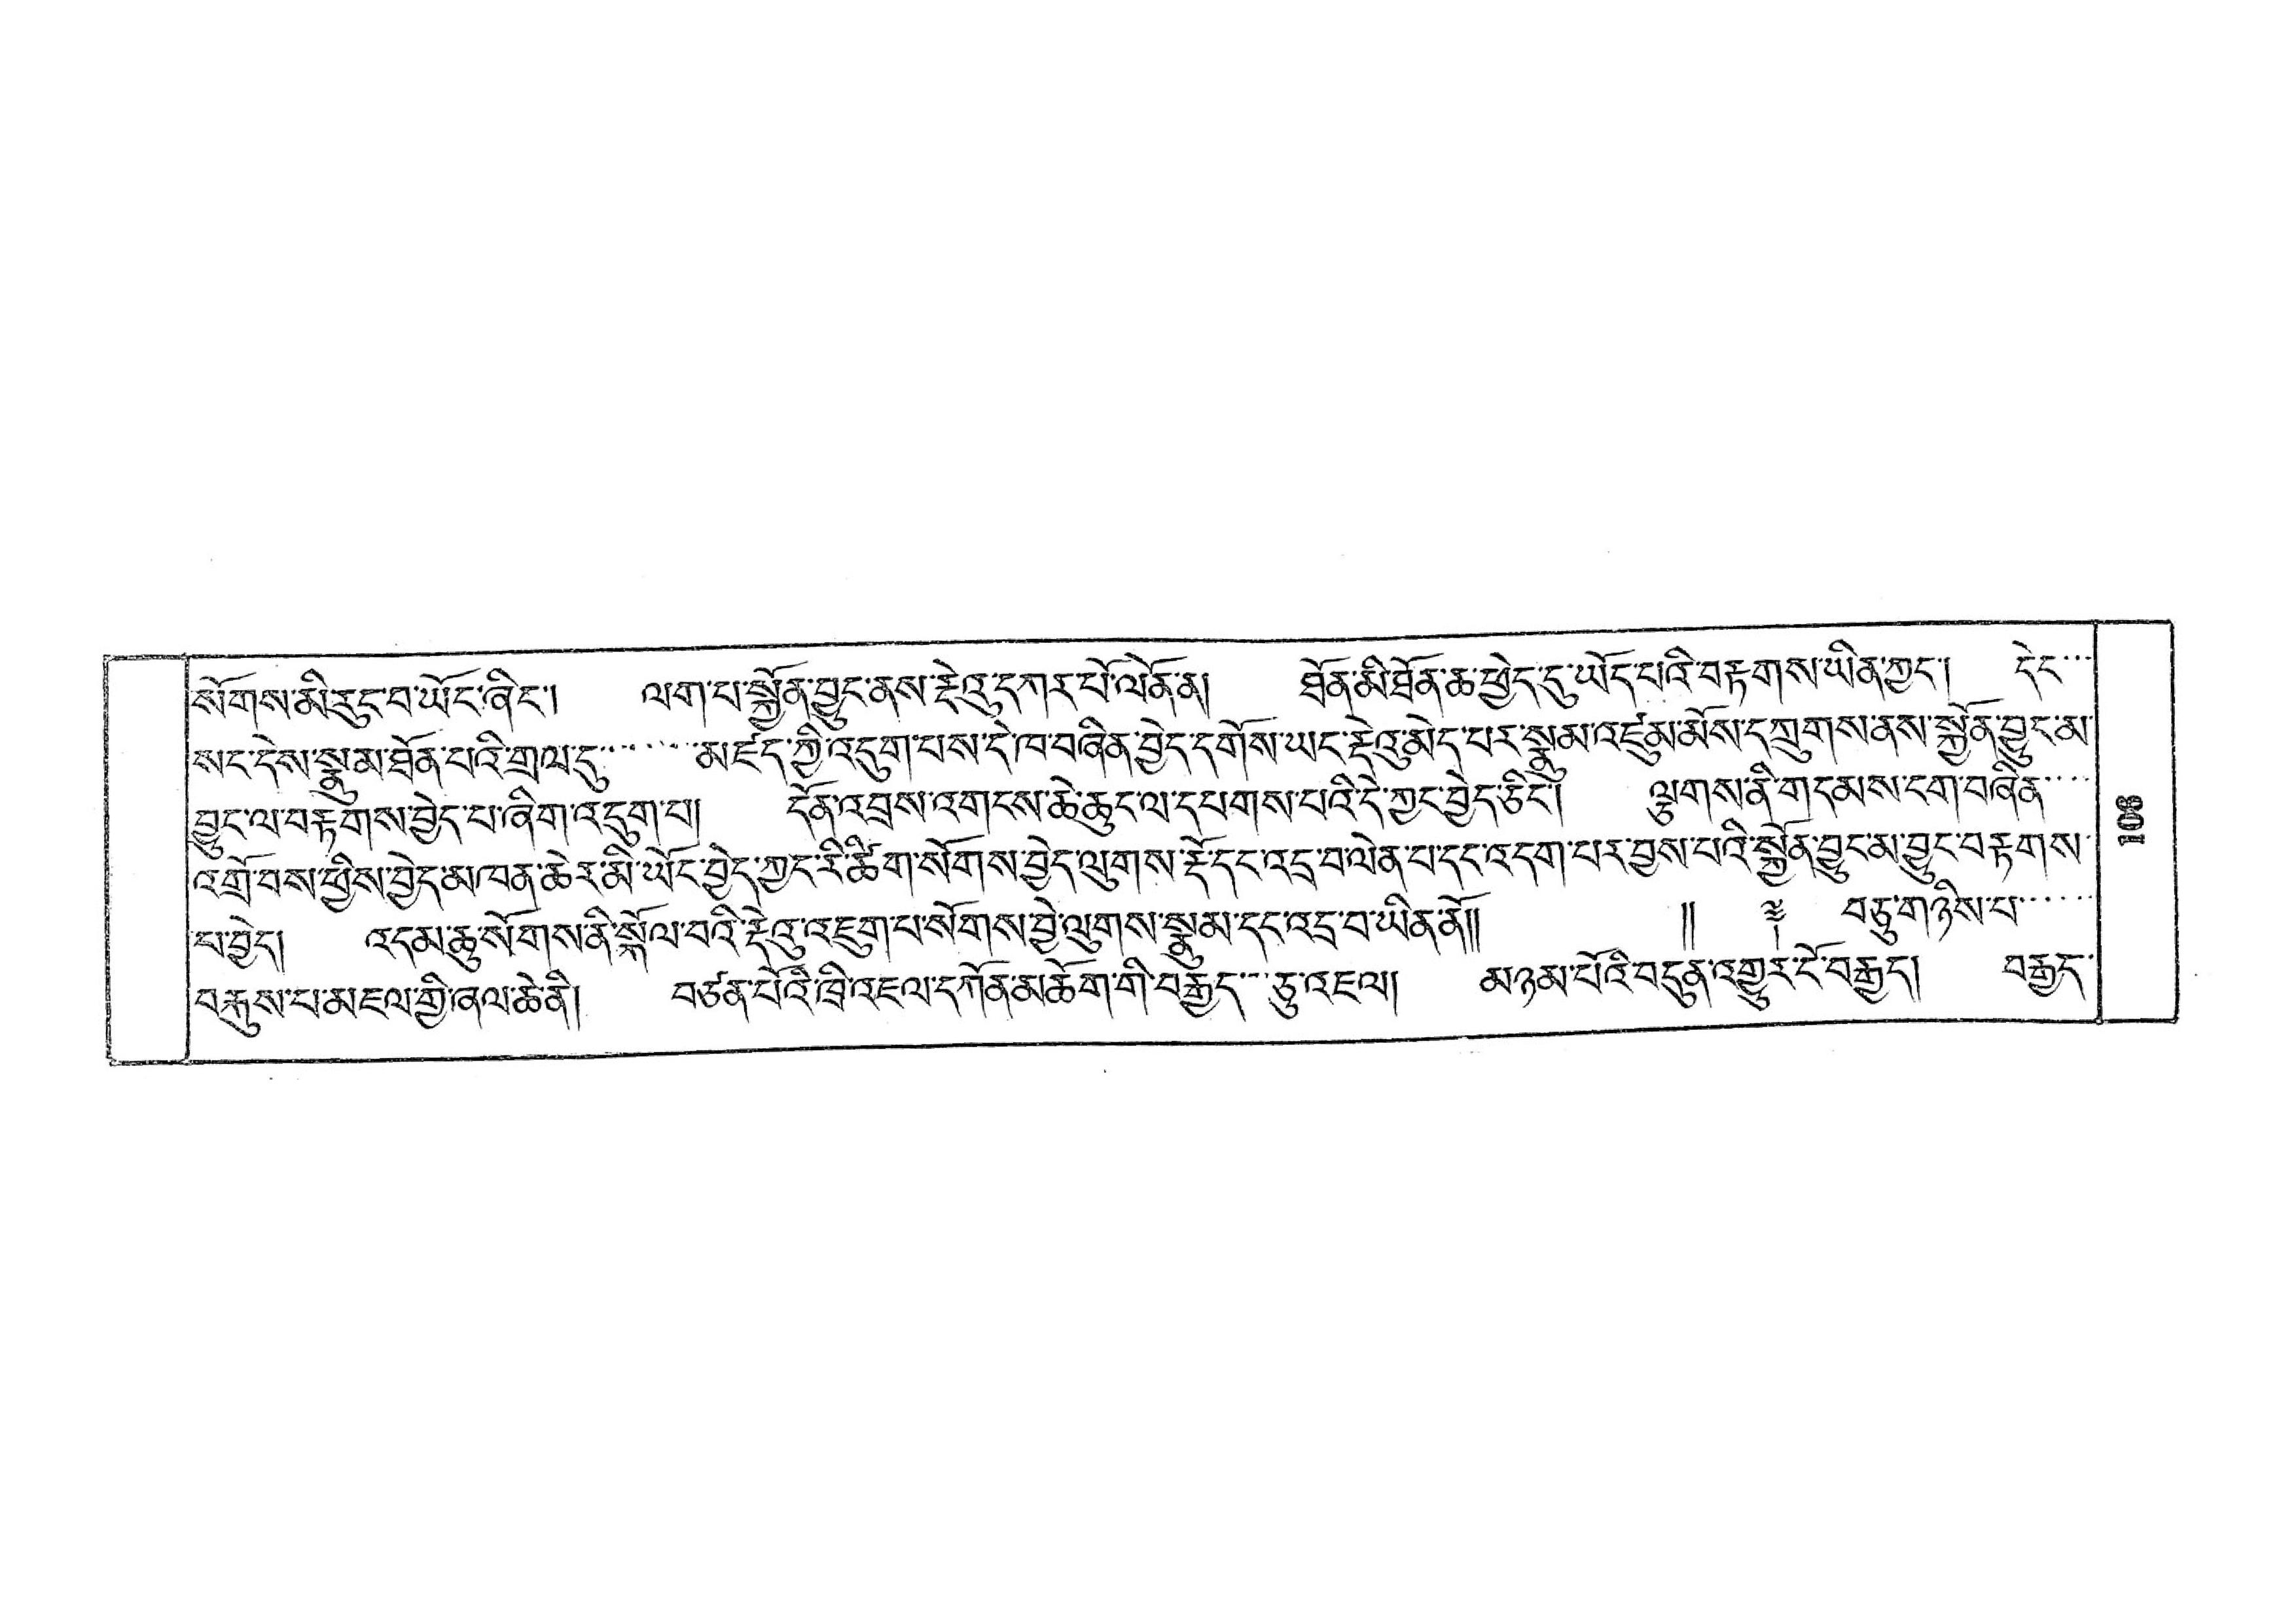སོགས་མི་རུང་བ་ཡོང་ཞིང་། ལག་པ་སྐྱོན་བྱུང་ནས་རྡེའུ་དཀར་པོ་ལོན་ན། ཐོན་མི་ཐོན་ཆ་ཕྱེད་དུ་ཡོད་པའི་བརྟགས་ཡིན་ཀྱང་། དེང་་་
སང་དེས་སྣུམ་ཐོན་པའི་གྲལ་དུ་་་་་་་མཛད་ཀྱི་འདུག་པས་དེ་ཁ་བཞིན་བྱེད་དགོས་ཡང་རྡེའུ་མེད་པར་སྣུམ་འཛུམ་མོས་དཀྲུགས་ནས་སྐྱོན་བྱུང་མ་
བྱུང་ལ་བརྟགས་བྱེད་པ་ཞིག་འདྲུག་པ། དོན་འབྲས་འགངས་ཆེ་ཆུང་ལ་དཔགས་པའི་དེ་ཀྱང་བྱེད་ཅིང་། ལྕགས་ནི་གདམས་ངག་བཞིན་་་་
འགྲོ་བས་ཕྱིས་བྱེད་མཁན་ཆེར་མི་ཡོང་བྱེད་ཀྱང་རི་ཚིག་སོགས་བྱེད་ལུགས་རྡ་དང་འདྲ་བ་ལེན་པ་དང་འདག་པར་བྱས་པའི་སྐྱོན་བྱུང་མ་བྱུང་བརྟགས་
པ་བྱེད། འདམ་ཆུ་སོགས་ནི་སྐོལ་བའི་རྡིའུ་འཇུག་པ་སོགས་བྱེ་ལུགས་སྣུམ་དད་འདྲ་བ་ཡིན་ནོ།།  །། ༈ བཅུ་གཉིས་པ་་་་
བརྐུས་པ་མཇལ་གྱི་ཞལ་ཆེ་ནི། བཙན་པོའི་ཁྲི་འཇལ་དཀོན་མཆོག་གི་བརྒྱད་་་ཅུ་འཇལ། མཉམ་པོའི་བདུན་འགྱུར་ངོ་བརྒྱད། བརྒྱུད་
